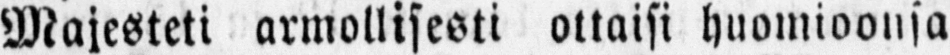Majesteti armollisesti ottaisi huomioonsa
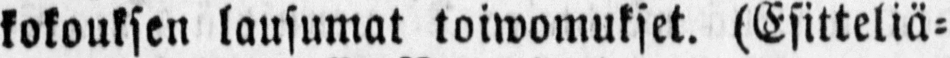kokouksen lausumat toiwomukset. (Esitteliä-
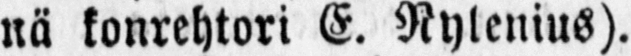nä konrehtori E. Nylenius).
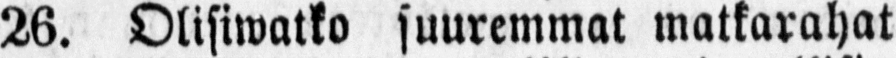26. Olisiwatko suuremmat matkarahat
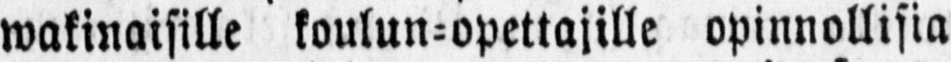wakinaisille koulun-opettajille opinnollisia
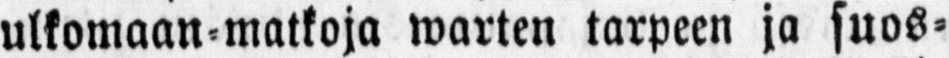ulkomaan-matkoja warten tarpeen ja suos-
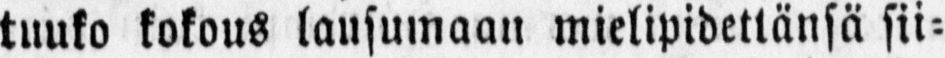tuuko kokous lausumaan mielipidettänsä sii-
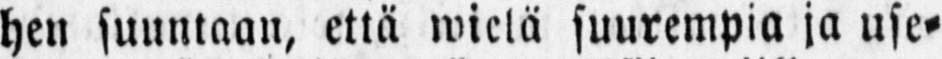hen suuntaan, että wielä suurempia ja use-
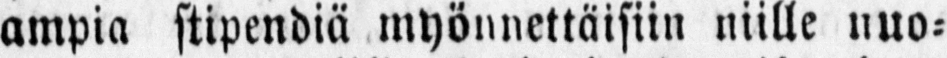ampia stipendiä myönnettäisiin niille nuo-
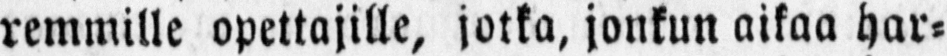remmille opettajille, jotka, jonkun aikaa har-
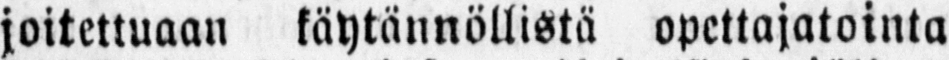joitettuaan käytännöllistä opettajatointa
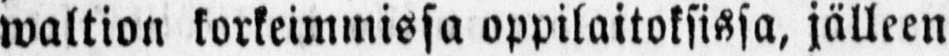waltion korkeimmissa oppilaitoksissa, jälleen
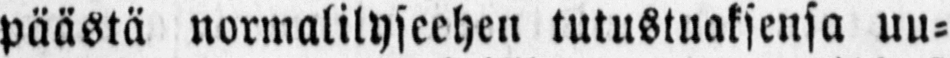päästä normalilyseehen tutustuaksensa uu-
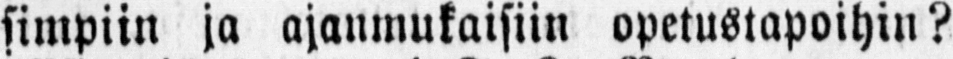simpiin ja ajanmukaisiin opetustapoihin?
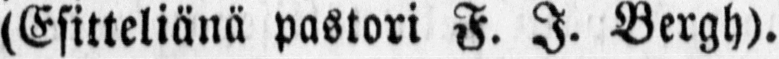(Esitteliänä pastori F. I. Bergh).
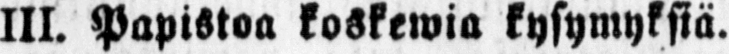III. Papistoa koskewia kysymyksiä.
